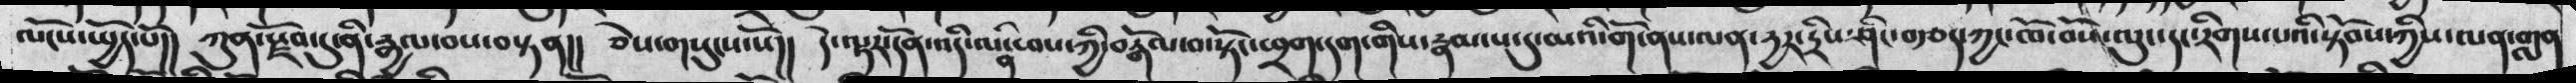ལོངས་སྤྱོད་པོ།།  ཀུན་རྫོབ་དུ་ནི་རྒྱལ་བས་བསྟན།།   ཅེས་གསུངས་སོ།།  དེ་ལྟར་དོན་འདི་ལན་ཕས་ཀྱི་བརྒོལ་བ་སྟོང་ཕྲག་དག་གིས་རྣམ་པ་དུ་མའི་གོ་ནས་ལན་དྱར་དྲིས་ཤིང་བརྩད་ཀྱང་ཁོ་བོས་ལུང་དང་རིགས་པའི་སྟོབས་ཀྱིས་ལན་གླན
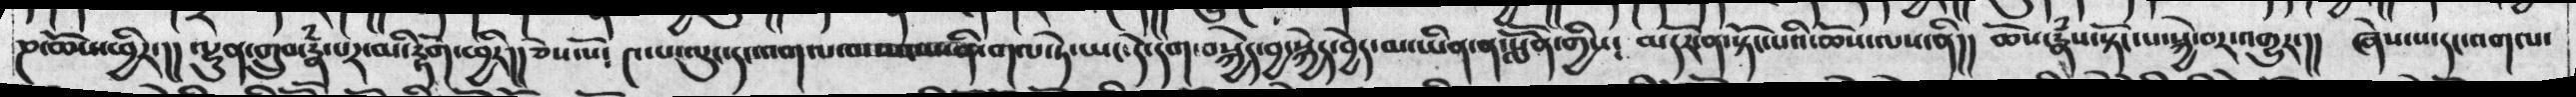ཎ་ཆོས་ཕྱིར་།།  ལྷུན་གྲུབ་རྣཾ་པར་མི་རྟོག་ཕྱིར།།  ཅེས་སོ༴  ༤་པ་ལུང་དང་འགལ་བ་མང་པ་ནི་གལ་ཏེ་ཡང་ཏེ་དག་བསྐྱེད་བྱེད་མ་ཡིན་ན་སློོན་གྱིས༴   མདོར་ན་སྟོང་པའི་ཆོས་ལས་ནི།།  ཆོས་རྣཾས་སྟོང་པ་སྐྱེ་བར་འགྱུར་།།  ཞེས་པ་དང་འགལ་
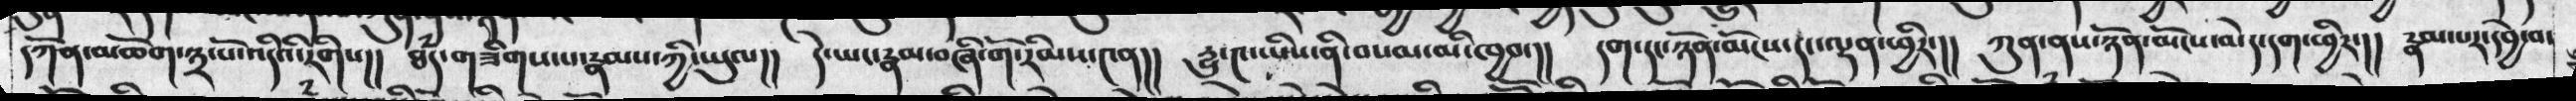དཀོན་མཆོག་༣་པོ་འདིའི་རིགས།།  ཐཾད་གཟིགས་པ་རྣམས་ཀྱི་ཡུལ།།   དེ་ཡང་རྣམ་བཞི་གོ་རིམས་༤ན།། རྱུ་༤་ཡིས་ནི་བསམ་མི་ཁྱབ་།།   དག་དང་ཉོན་མོངས་དང་ལྡན་ཕྱིར་།།  ཀུན་ནས་ཉོན་མོངས་མེད་དག་ཕྱིར་།།  རྣམ་པར་དབྱེ་བ་
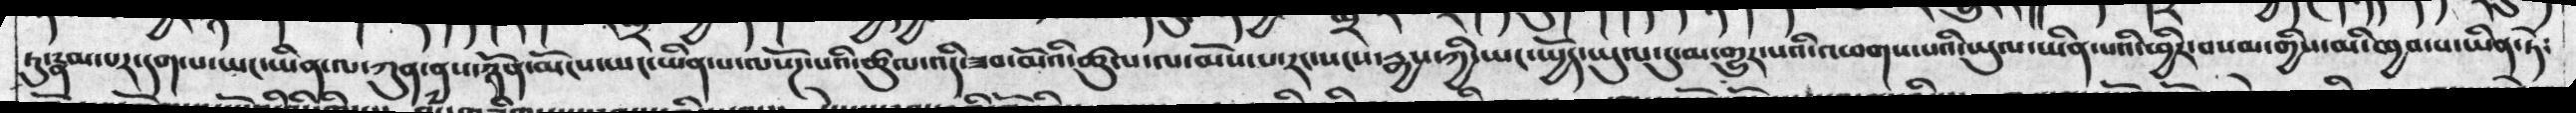ཏུ་རྣམ་པར་དག་ཡང་ཡིན་ལ་ཀུན་ནས་ཉོན་མོངས་ཡང་ཡིན་པ་ལསོཌ་པའི་ཚུལ་འདི་ཟབ་མོའི་ཚུལ་ལ་མོས་པ་རང་སངས་རྒྱས་ཀྱི་ཡང་སྤྱོད་ཡུལ་དུ་མ་གྱུར་པའི་འཕགས་པའི་ཡུལ་ཡིན་པའི་ཕྱིར་བསམ་གྱིས་མི་ཁྱབ་པ་ཡིན་ཏེ༴
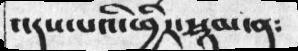་་དང་པའི་ཕྱིར་སྙམ་ན༴
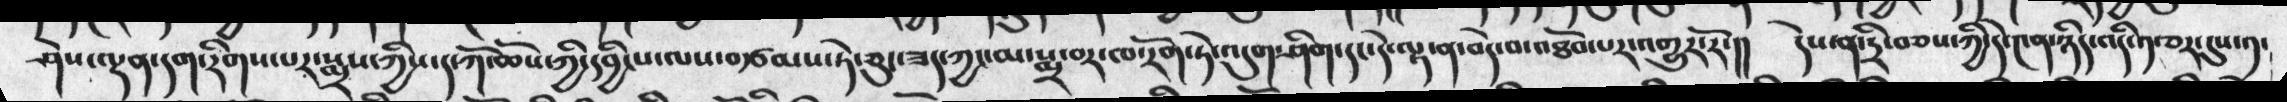ཤེས་ལྡན་དག་རིགས་པར་སྨྲས་ཀྱིས་ད་ཀོ་ཆོས་དབྱིངས་ལས་བཙམས་ཏེ་ཅུང་ཟད་ཀྱང་མ་སྨྲ་བར་ཁ་རོག་ཏེ་འདུག་ཤིག་དང་དེ་ལྟ་ན་བདེ་བ་འཐོབ་འགྱུར་རོ་།།  དེས་ན་དྲི་བཅས་ཀྱི་དེ་༤ན་ཉིད་འདི་༡་བར་དུས་༡་
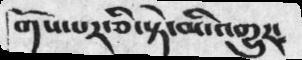གོས་པར་ཅི་སྟེ་མི་འགྱུར༴
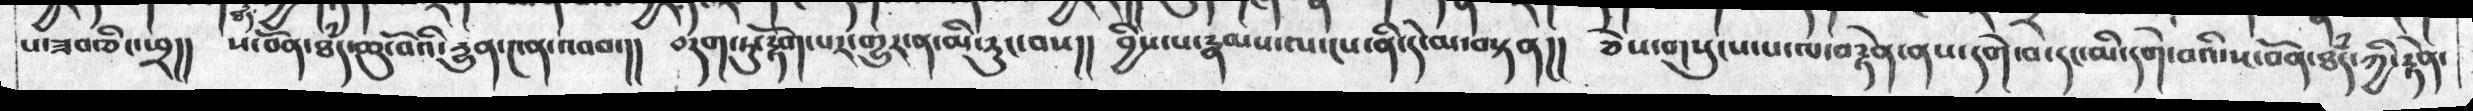པ་ཟབ་ཅིང་ཕྲ།།  ས་བོན་ཐཾད་ཆུ་བོའི་རྱུ་༤ན་འབབ་།།  བདག་ཏུ་རྟོག་པར་གྱུར་ན་མི་རུང་བས།།  བྱིས་པ་རྣམས་པ་རྣམས་པ་ལ་ངས་ནི་དེ་ལ་བསྟན།།   ཅེས་གསུངས་པ་ལ་བརྟེན་ནས་དགེ་བ་དང་མི་དགེ་བའི་ས་བོན་ཐཾད་ཀྱི་རྟེན་
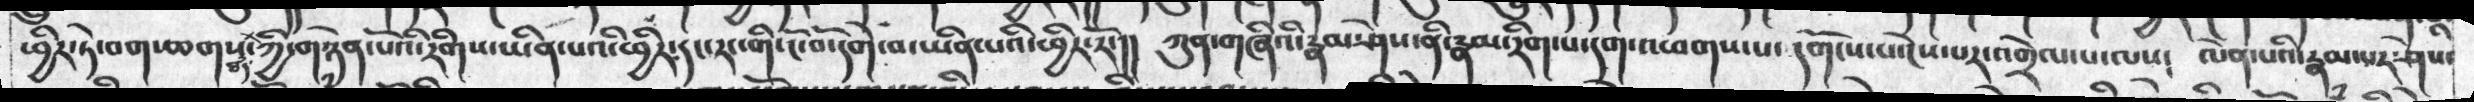ཕྱིར་ཏེ་བག་ཆགས་ཐཾད་ཀྱི་གཉེན་པོའི་རིགས་ཡིན་པའི་ཕྱིར་དང་རང་གི་ངོ་བོ་དགེ་བ་ཡིན་པའི་ཕྱིར་རོ་།།  ཀུན་གཞིའི་རྣམ་ཤེས་ནི་རྣམ་རིག་པ་དག་འཕགས་པ་དགོངས་པ་ངེས་པར་འགྲེལ་པ་ལས༴   ལེན་པའི་རྣམ་པར་ཤེས་
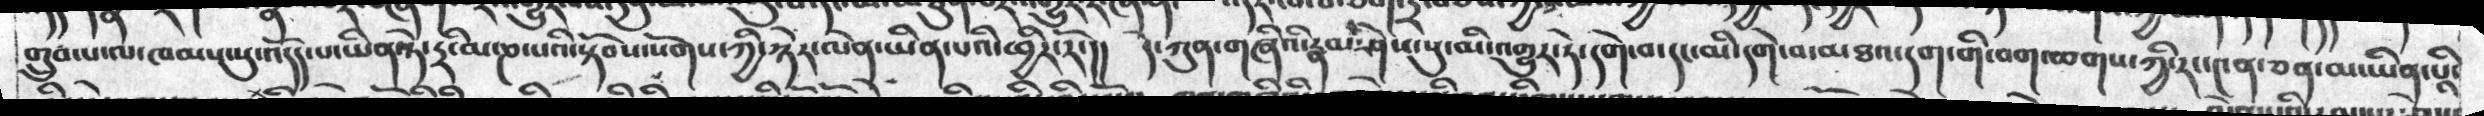གྲུབ་པ་ལ་ཁམས་སུ་འདོད་པ་ཡིན་ཏེ་དྲི་མ་ཎ་པའི་སྟོབས་སོགས་ཀྱི་ཉེར་ལེན་ཡིན་པའི་ཕྱིར་རོ་།།   དེ་ཀུན་གཞིའི་རྣམ་ཤེས་སུ་མི་འགྱུར་ཏེ་དགེ་བ་དང་མི་དགེ་བ་མཐའ་དག་གི་བག་ཆགས་ཀྱི་རང་༤ན་ཅན་མ་ཡིན་པའི་
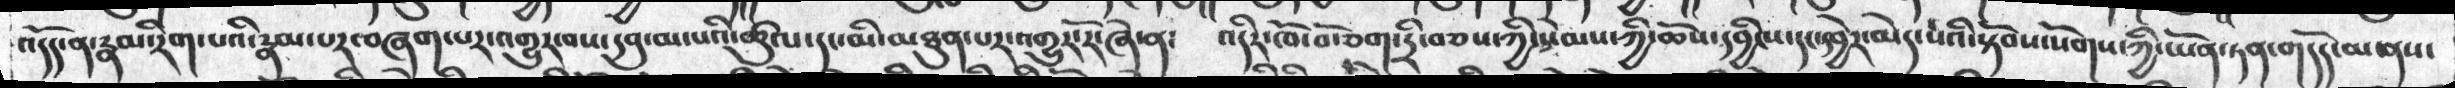འདོད་ན་རྣམ་རིག་པའི་རྣམ་པར་བཞག་པར་འགྱུར་བས་དབུ་མ་པའི་ཚུལ་དང་མི་མཐུན་པར་འགྱུར་རོ་ཞེ་ན༴  འདིར་ཁོ་བོརྩག་དྲི་བཅས་ཀྱི་སེམས་ཀྱི་ཆོས་དབྱིངས་དང་དབྱེར་མེད་པའི་སྟོབས་སོགས་ཀྱི་ཡོན་ཏན་གདོད་མ་ནས་
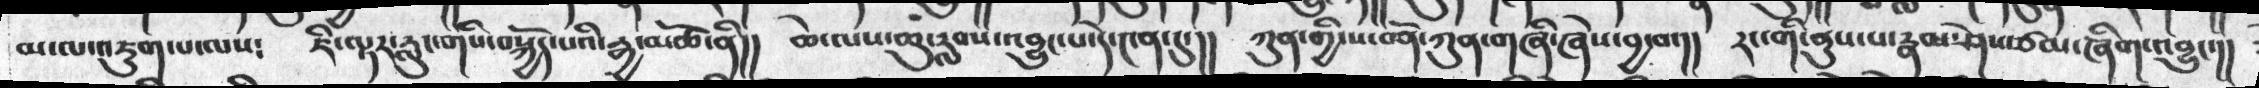མ་ལ་འཇུག་པ་ལས༴  ཇི་ལྟར་རླུང་གིས་བསྐྱོད་པའི་རྒྱ་མཚོ་ནི།།   ཆེ་ལས་ཆུ་རླབས་འབྱུང་པ་དེ་༤ན་དུ་།།  ཀུན་གྱི་ས་བོན་ཀུན་གཞི་ཞེས་བྱ་བ་་།།   རང་གི་ནུས་པ་རྣམ་ཤེས་ཙམ་ཞིག་འབྱུང་།།
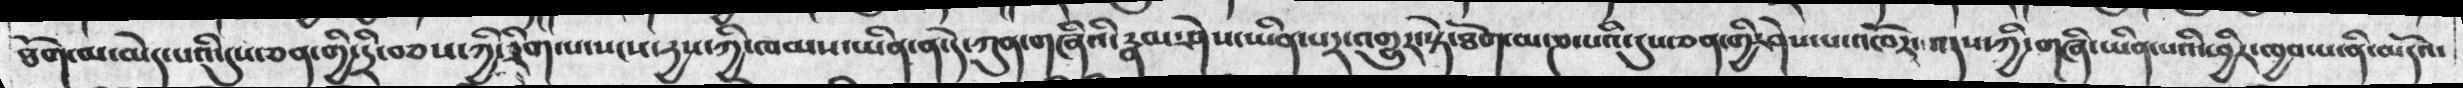ཐོག་མ་མེད་པའི་དུས་ཅན་གྱི་དྲི་བཅས་ཀྱི་རིག་པ་སངས་རྱས་ཀྱི་ཁམས་ཡིན་ན་དེ་ཀུན་གཞིའི་རྣམ་ཤེས་ཡིན་པར་འགྱུར་སྟེ་ཐོག་མ་ཎ་པའི་དུས་ཅན་གྱི་ཤེས་པ་འཁོར་འདས་ཀྱི་གཞི་ཡིན་པའི་ཕྱིར་ཁྱབ་པ་ནི་མདོའ་
